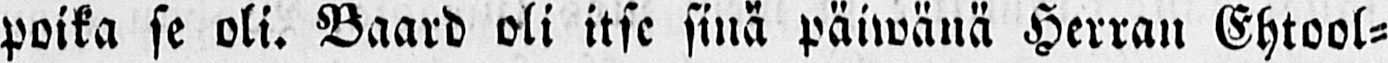poika se oli. Baard oli itse sinä päiwänä Herran Ehtool-
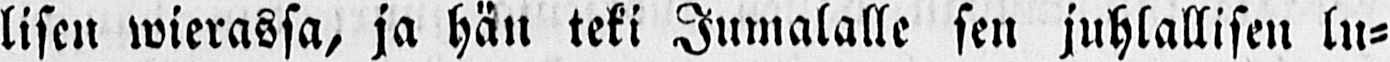lisen wierassa, ja hän teki Jumalalle sen juhlallisen lu-
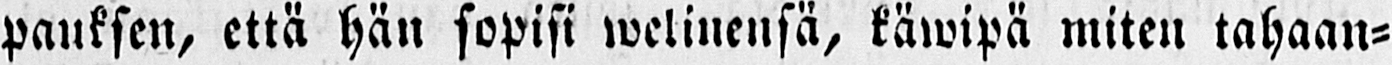pauksen, että hän sopisi welinensä, käwipä miten tahaan-
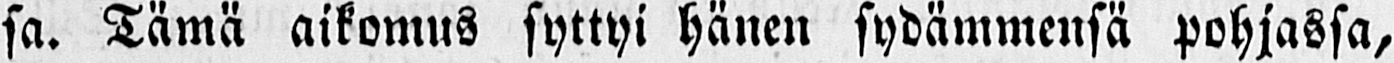sa. Tämä aikomus syttyi hänen sydämmensä pohjassa,
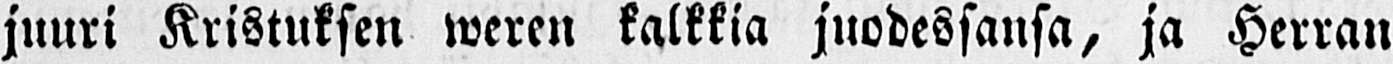juuri Kristuksen weren kalkkia juodessansa, ja Herran
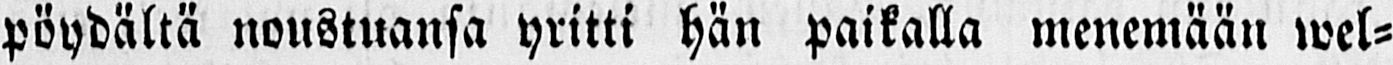pöydältä noustuansa yritti hän paikalla menemään wel-
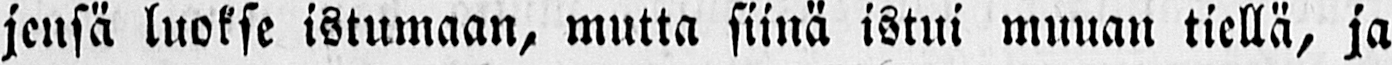jensä luokse istumaan, mutta siinä istui muuan tiellä, ja
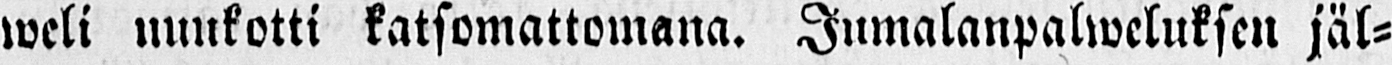weli nuukotti katsomattomana. Jumalanpalweluksen jäl-
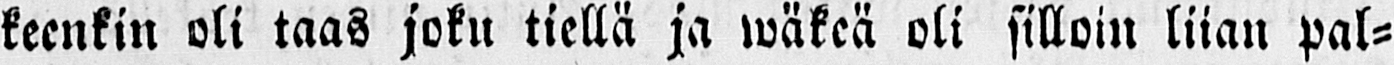keenkin oli taas joku tiellä ja wäkeä oli silloin liian pal-
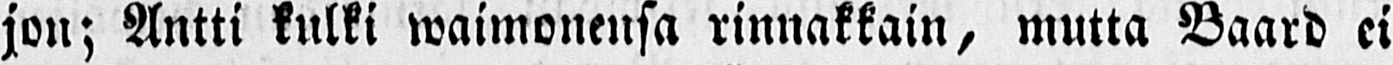jon; Antti kulki waimonensa rinnakkain, mutta Baard ei
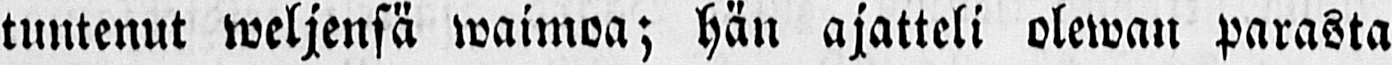tuntenut weljensä waimoa; hän ajatteli olewan parasta
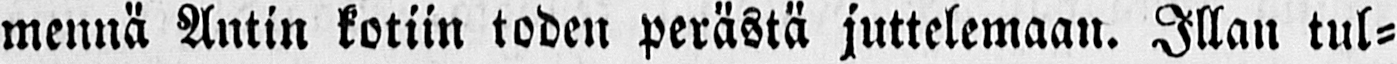mennä Antin kotiin toden perästä juttelemaan. Illan tul-
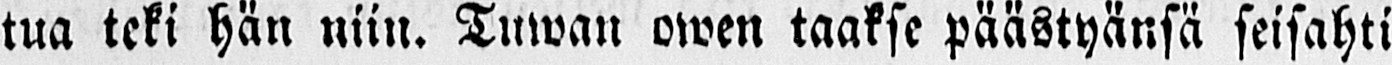tua teki hän niin. Tuwan owen taakse päästyänsä seisahti
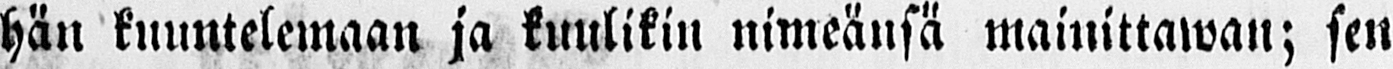hän kuuntelemaan ja tuulikin nimeänsä mainittawan; sen
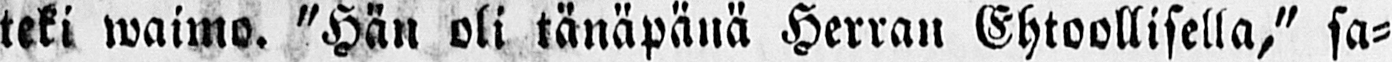teki waimo. "Hän oli tänäpänä Herran Ehtoollisella," sa-
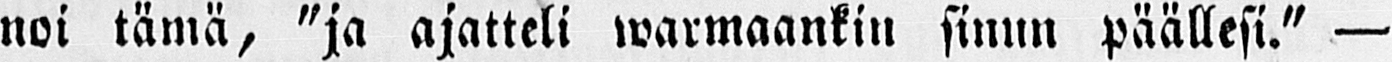noi tämä, "ja ajatteli warmaankin sinun päällesi." —
